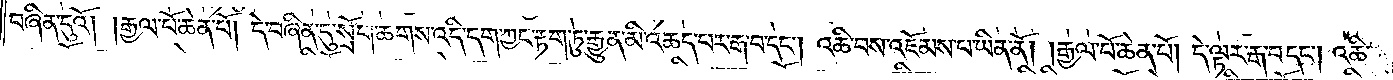བཞིན་དུའོ། །རྒྱལ་པོ་ཆེན་པོ། དེ་བཞིན་དུ་སྲོག་ཆགས་འདི་དག་ཀྱང་རྟག་ཏུ་རྒྱུན་མི་འཆད་པར་རྒ་བ་དང༌། འཆི་བས་འཇོམས་པ་ཡིན་ནོ། །རྒྱལ་པོ་ཆེན་པོ། དེ་ལྟར་རྒ་བ་དང༌། འཆི་
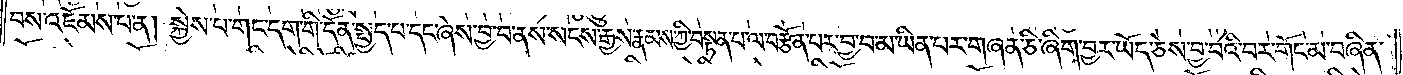བས་འཇོམས་པ་ན། སྐྱེས་པ་གང་དག་གི་དོན་སྤྱད་པ་དང་ཞེས་བྱ་བ་ནས་སངས་རྒྱས་རྣམས་ཀྱི་བསྟན་པ་ལ་བརྩོན་པར་བྱ་བ་མ་ཡིན་པར་གཞན་ཅི་ཞིག་བྱར་ཡོད་ཅེས་བྱ་བའི་བར་གོང་མ་བཞིན་
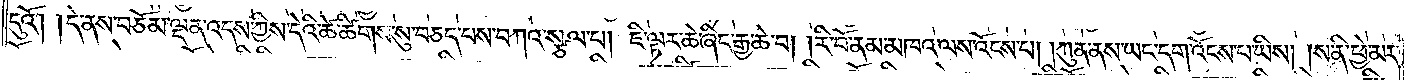དུའོ། །དེ་ནས་བཅོམ་ལྡན་འདས་ཀྱིས་དེའི་ཚེ་ཚིགས་སུ་བཅད་པས་བཀའ་སྩལ་པ། ཇི་ལྟར་ཆེ་ཞིང་རྒྱ་ཆེ་བ། །རི་བོ་ནམ་མཁའ་ལས་འོངས་པ། །ཀུན་ནས་ཡང་དག་འོངས་པ་ཡིས། །ས་ནི་ཕྱེ་མར་
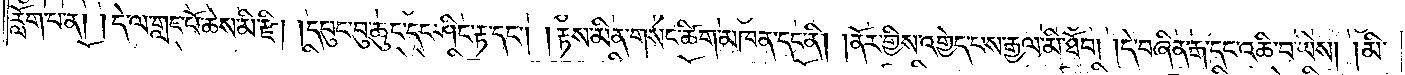རློག་པ་ན། །དེ་ལ་གླང་པོ་ཆེས་མི་རྫི། །དཔུང་བུ་ཆུང་དང་ཤིང་རྟ་དང༌། །རྟས་མིན་གསང་ཚིག་མཁན་དང་ནི། །ནོར་གྱིས་འགྱེད་པས་རྒྱལ་མི་ཐོབ། །དེ་བཞིན་རྒ་དང་འཆི་བ་ཡིས། །མི་
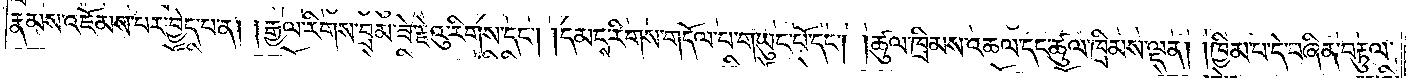རྣམས་འཇོམས་པར་བྱེད་པ་ན། །རྒྱལ་རིགས་བྲམ་ཟེ་རྗེའུ་རིགས་དང༌། །དམངས་རིགས་གདོལ་པ་གཡུང་པོ་དང༌། །ཚུལ་ཁྲིམས་འཆལ་དང་ཚུལ་ཁྲིམས་ལྡན། །ཁྱིམ་པ་དེ་བཞིན་བརྟུལ་
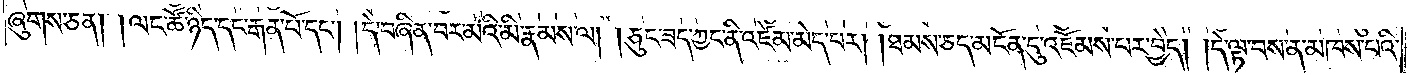ཞུགས་ཅན། །ལང་ཚོ་ཉིད་དང་རྒན་པོ་དང༌། །དེ་བཞིན་བར་མའི་མི་རྣམས་ལ། །ཅུང་ཟད་ཀྱང་ནི་འཛེམ་མེད་པར། །ཐམས་ཅད་མངོན་དུ་འཇོམས་པར་བྱེད། །དེ་ལྟ་བས་ན་མཁས་པའི་
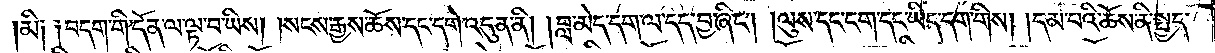མི༑ ༑བདག་གི་དོན་ལ་ལྟ་བ་ཡིས། །སངས་རྒྱས་ཆོས་དང་དགེ་འདུན་ནི། །བླ་མེད་དག་ལ་དད་བྱ་ཞིང༌། །ལུས་དང་ངག་དང་ཡིད་དག་གིས། །དམ་པའི་ཆོས་ནི་སྤྱད་
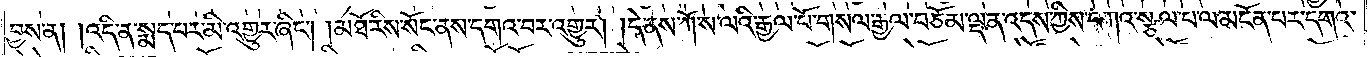བྱས་ན། །འདི་ན་སྨད་པར་མི་འགྱུར་ཞིང༌། །མཐོ་རིས་སོང་ནས་དགའ་བར་འགྱུར། །དེ་ནས་ཀོ་ས་ལའི་རྒྱལ་པོ་གསལ་རྒྱལ་བཅོམ་ལྡན་འདས་ཀྱིས་བཀའ་སྩལ་པ་ལ་མངོན་པར་དགའ་
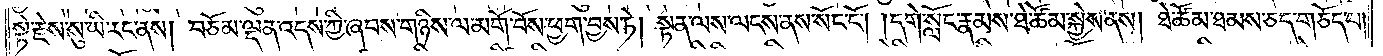སྟེ་རྗེས་སུ་ཡི་རང་ནས། བཅོམ་ལྡན་འདས་ཀྱི་ཞབས་གཉིས་ལ་མགོ་བོས་ཕྱག་བྱས་ཏེ། སྟན་ལས་ལངས་ནས་སོང་ངོ༌། །དགེ་སློང་རྣམས་ཐེ་ཚོམ་སྐྱེས་ནས། ཐེ་ཚོམ་ཐམས་ཅད་གཅོད་པ།
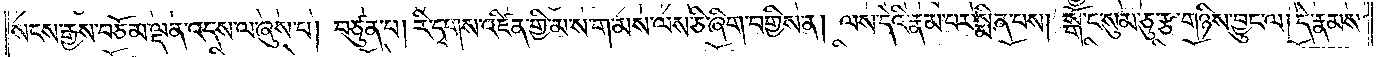སངས་རྒྱས་བཅོམ་ལྡན་འདས་ལ་ཞུས་པ། བཙུན་པ། རི་དྭགས་འཛིན་གྱི་མ་ས་ག་མས་ལས་ཅི་ཞིག་བགྱིས་ན། ལས་དེའི་རྣམ་པར་སྨིན་པས། སྒོ་ང་སུམ་ཅུ་རྩ་གཉིས་བྱུང་ལ། དེ་རྣམས་
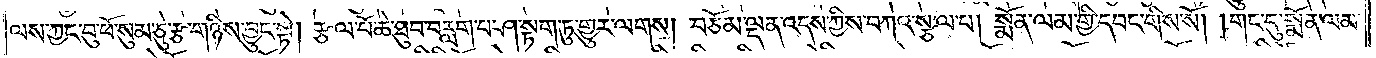ལས་ཀྱང་བུ་ཕོ་སུམ་ཅུ་རྩ་གཉིས་བྱུང་སྟེ། རྩལ་པོ་ཆེ་ཐུབ་བརླག་པ་ཤ་སྟག་ཏུ་གྱུར་ལགས། བཅོམ་ལྡན་འདས་ཀྱིས་བཀའ་སྩལ་པ། སྨོན་ལམ་གྱི་དབང་གིས་སོ། །གང་དུ་སྨོན་ལམ་
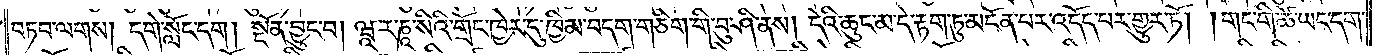བཏབ་ལགས། དགེ་སློང་དག །སྔོན་བྱུང་བ། ཝཱ་ར་ཎཱ་སིའི་གྲོང་ཁྱེར་དུ་ཁྱིམ་བདག་གཅིག་གི་བུ་ཤི་ནས། དེའི་ཆུང་མ་དེ་རྟག་ཏུ་མངོན་པར་འདོད་པར་གྱུར་ཏོ། །གང་གི་ཚེ་ཡང་དག་
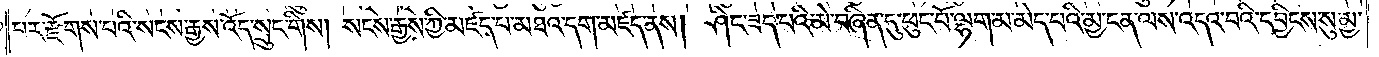བར་རྫོགས་པའི་སངས་རྒྱས་འོད་སྲུང་གིས། སངས་རྒྱས་ཀྱི་མཛད་པ་མཐའ་དག་མཛད་ནས། ཤིང་ཟད་པའི་མེ་བཞིན་དུ་ཕུང་པོ་ལྷག་མ་མེད་པའི་མྱ་ངན་ལས་འདའ་བའི་དབྱིངས་སུ་མྱ་
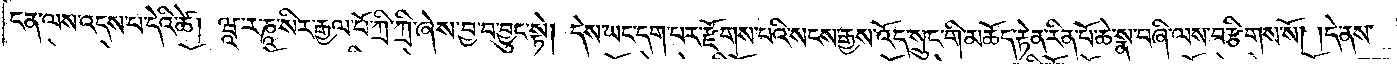ངན་ལས་འདས་པ་དེའི་ཚེ། ཝཱ་ར་ཎཱ་སིར་རྒྱལ་པོ་ཀྲི་ཀྲི་ཞེས་བྱ་བ་བྱུང་སྟེ། དེས་ཡང་དག་པར་རྫོགས་པའི་སངས་རྒྱས་འོད་སྲུང་གི་མཆོད་རྟེན་རིན་པོ་ཆེ་སྣ་བཞི་ལས་བརྩིགས་སོ། །དེ་ནས་
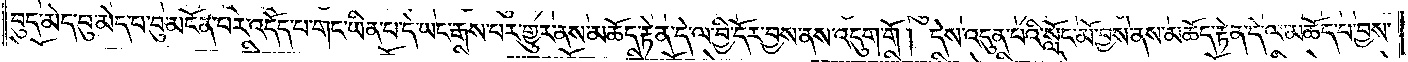བུད་མེད་བུ་མེད་པ་བུ་མངོན་བར་འདོད་པ་གང་ཡིན་པ་དེ་ཡང་རྒས་པར་གྱུར་ནས་མཆོད་རྟེན་དེ་ལ་བྱི་དོར་བྱས་ནས་འདུག་གོ །དེས་འདུན་པའི་སློང་མོ་བྱས་ནས་མཆོད་རྟེན་དེ་ལ་མཆོད་པ་བྱས་
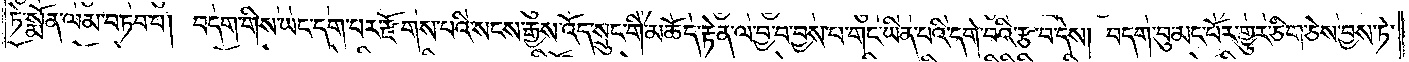ཏེ་སྨོན་ལམ་བཏབ་པ། བདག་གིས་ཡང་དག་པར་རྫོགས་པའི་སངས་རྒྱས་འོད་སྲུང་གི་མཆོད་རྟེན་ལ་བྱ་བ་བྱས་པ་གང་ཡིན་པའི་དགེ་བའི་རྩ་བ་དེས། བདག་བུ་མང་པོར་གྱུར་ཅིག་ཅེས་བྱས་ཏེ་
